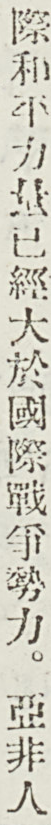際和平力量已經大於國際戰爭勢力。亞非人
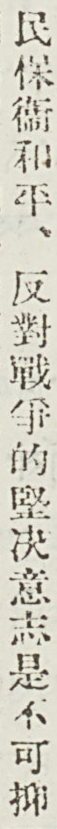民保衛和平、反對戰爭的堅決意志是不可抑
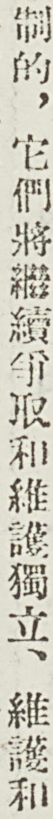制的，他們將繼續爭取和維護獨立、維護和
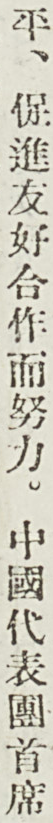平、促進友好合作而努力。中國代表團首席
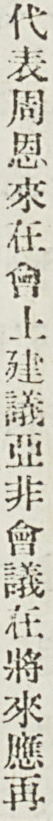代表周恩來在會上建議亞非會議在將來應再
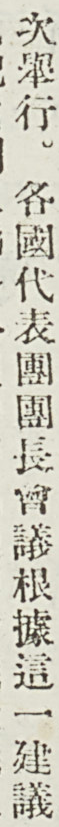次舉行。各國代表團團長會議根據這一建議
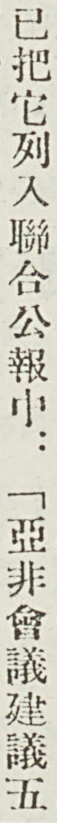已把它列入聯合公報中：「亞非會議建議五
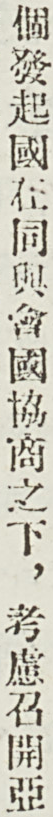個發起國在同與會國協商之下，考慮召開亞
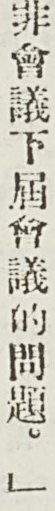非會議下屆會議的問題。」
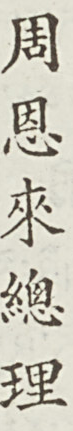周恩來總理
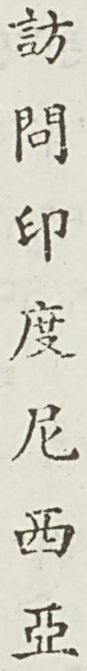訪 問 印 度 尼 西 亞
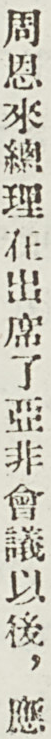周恩來總理在出席了亞非會議以後，應
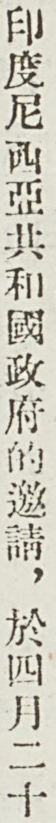印度尼西亞共和國政府的邀請，於四月二十
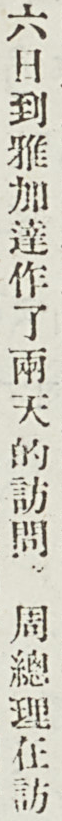六日到雅加達作了兩天的訪問。周總理在訪
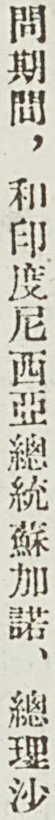問期間，和印度尼西亞總統蘇加諾、總理沙
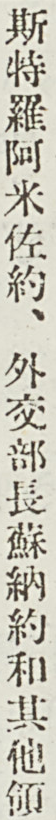斯特羅阿米佐約、外交部長蘇納約和其他領
